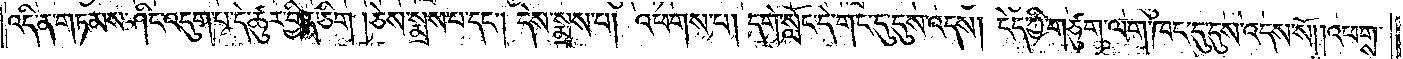འདི་ན་གཏམས་ཤིང་འདུག་པ་དེ་ཚུར་བྱིན་ཅིག །ཅེས་སྨྲས་པ་དང༌། དེས་སྨྲས་པ། འཕགས་པ། དགེ་སློང་དེ་གང་དུ་དུས་འདས། ངེད་ཀྱི་གཙུག་ལག་ཁང་དུ་དུས་འདས་སོ། །འཕགས་
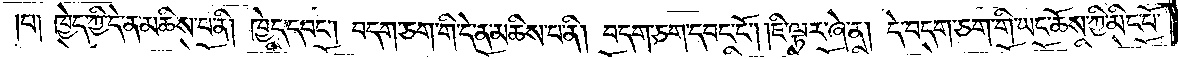པ། ཁྱེད་ཀྱི་དེ་ན་མཆིས་པ་ནི། ཁྱེད་དབང༌། བདག་ཅག་གི་དེ་ན་མཆིས་པ་ནི། བདག་ཅག་དབང་ངོ༌། །ཇི་ལྟར་ཞེ་ན། དེ་བདག་ཅག་གི་ཡང་ཆོས་ཀྱི་མིང་པོ་
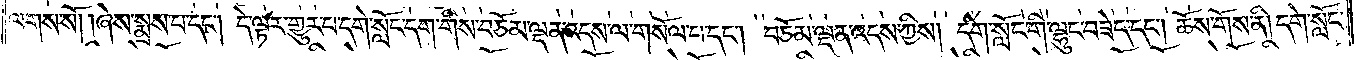ལགས་སོ། །ཞེས་སྨྲས་པ་དང༌། དེ་ལྟར་གྱུར་པ་དགེ་སློང་དག་གིས་བཅོམ་ལྡན་འདས་ལ་གསོལ་པ་དང༌། བཅོམ་ལྡན་འདས་ཀྱིས། དགེ་སློང་གི་ལྷུང་བཟེད་དང༌། ཆོས་གོས་ནི། དགེ་སློང་
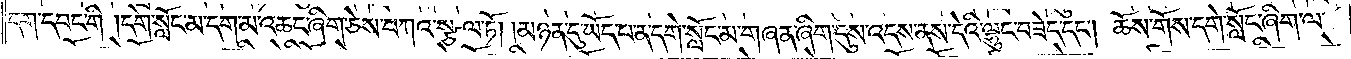དག་དབང་གི །དགེ་སློང་མ་དག་མ་འཆང་ཞིག་ཅེས་བཀའ་སྩལ་ཏོ། །མཉན་དུ་ཡོད་པ་ན་དགེ་སློང་མ་གཞན་ཞིག་དུས་འདས་ནས་དེའི་ལྷུང་བཟེད་དང༌། ཆོས་གོས་དགེ་སློང་ཞིག་ལ་
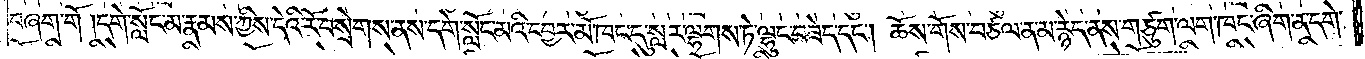བཞག་གོ །དགེ་སློང་མ་རྣམས་ཀྱིས་དེའི་རོ་བསྲེགས་ནས་དགེ་སློང་མའི་དབྱར་མོ་ཁང་དུ་སླར་ལྷགས་ཏེ་ལྷུང་བཟེད་དང༌། ཆོས་གོས་བཙལ་ན་མ་རྙེད་ནས་གཙུག་ལག་ཁང་ཞིག་ན་དགེ་
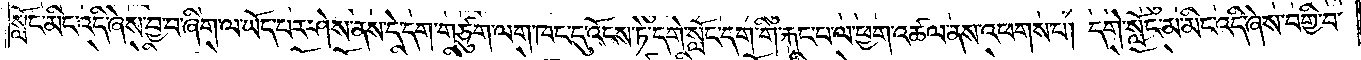སློང་མིང་འདི་ཞེས་བྱ་བ་ཞིག་ལ་ཡོད་པར་ཤེས་ནས་དེ་དག་གཙུག་ལག་ཁང་དུ་འོངས་ཏེ་དགེ་སློང་དག་གི་རྐང་པ་ལ་ཕྱག་འཚལ་ནས་འཕགས་པ། དགེ་སློང་མ་མིང་འདི་ཞེས་བགྱི་བ་
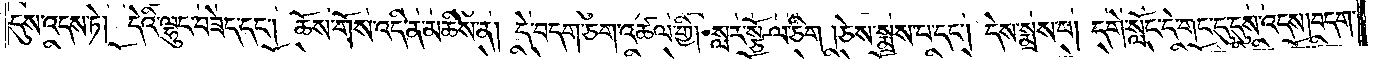དུས་འདས་ཏེ། དེའི་ལྷུང་བཟེད་དང༌། ཆོས་གོས་འདི་ན་མཆིས་ན། དེ་བདག་ཅག་འཚལ་གྱི། སླར་སྩོལ་ཅིག །ཅེས་སྨྲས་པ་དང༌། དེས་སྨྲས་པ། དགེ་སློང་དེ་གང་དུ་དུས་འདས། བདག་
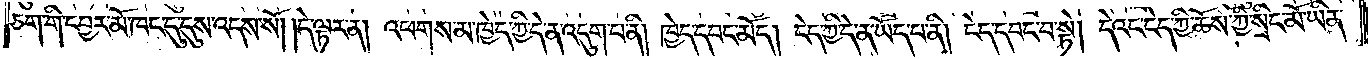ཅག་གི་དབྱར་མོ་ཁང་དུ་དུས་འདས་སོ། །དེ་ལྟར་ན། འཕགས་མ་ཁྱེད་ཀྱི་དེ་ན་འདུག་པ་ནི། ཁྱེད་དབང་མོད། ངེད་ཀྱི་དེ་ན་ཡོད་པ་ནི། ངེད་དབང་བ་སྟེ། དེའང་ངེད་ཀྱི་ཆོས་ཀྱི་སྲིང་མོ་ཡིན་
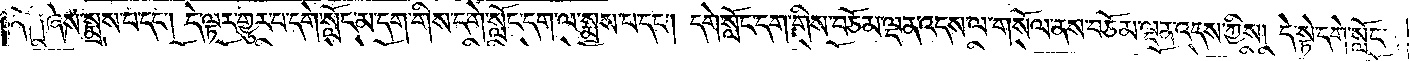ནོ༑ ༑ཞེས་སྨྲས་པ་དང༌། དེ་ལྟར་གྱུར་པ་དགེ་སློང་མ་དག་གིས་དགེ་སློང་དག་ལ་སྨྲས་པ་དང༌། དགེ་སློང་དག་གིས་བཅོམ་ལྡན་འདས་ལ་གསོལ་ནས་བཅོམ་ལྡན་འདས་ཀྱིས། དེ་སྟེ་དགེ་སློང་
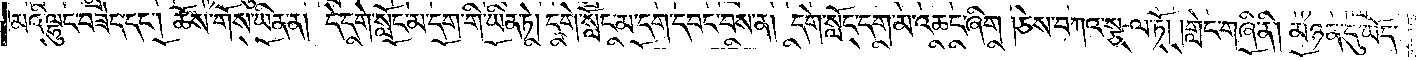མའི་ལྷུང་བཟེད་དང༌། ཆོས་གོས་ཡིན་ན། དེ་དགེ་སློང་མ་དག་གི་ཡིན་ཏེ། དགེ་སློང་མ་དག་དབང་བས་ན། དགེ་སློང་དག་མ་འཆང་ཞིག །ཅེས་བཀའ་སྩལ་ཏོ། །གླེང་གཞི་ནི། མཉན་དུ་ཡོད་
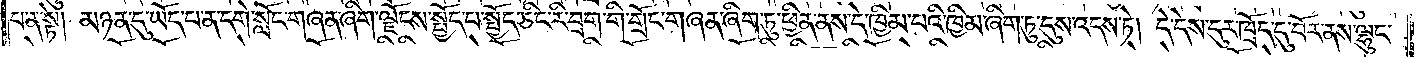པ་ན་སྟེ། མཉན་དུ་ཡོད་པ་ན་དགེ་སློང་གཞན་ཞིག་ལྗོངས་སྤྱོད་པ་སྤྱོད་ཅིང་རི་བྲག་གི་གྲོང་གཞན་ཞིག་ཏུ་ཕྱིན་ནས་དེ་ཁྱིམ་པའི་ཁྱིམ་ཞིག་ཏུ་དུས་འདས་ཏེ། དེ་དེས་དུར་ཁྲོད་དུ་བོར་ནས་ལྷུང་
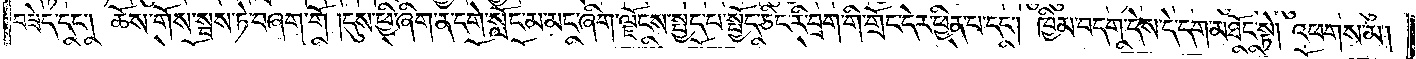བཟེད་དང༌། ཆོས་གོས་སྦས་ཏེ་བཞག་གོ །དུས་ཕྱི་ཞིག་ན་དགེ་སློང་མ་མང་ཞིག་ལྗོངས་སྤྱད་པ་སྤྱོད་ཅིང་རི་བྲག་གི་གྲོང་དེར་ཕྱིན་པ་དང༌། ཁྱིམ་བདག་དེས་དེ་དག་མཐོང་སྟེ། འཕགས་མ།
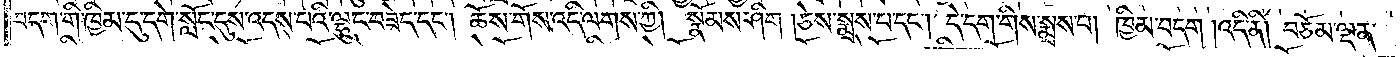བདག་གི་ཁྱིམ་དུ་དགེ་སློང་དུས་འདས་པའི་ལྷུང་བཟེད་དང༌། ཆོས་གོས་འདི་ལགས་ཀྱི། སྣོམས་ཤིག །ཅེས་སྨྲས་པ་དང༌། དེ་དག་གིས་སྨྲས་པ། ཁྱིམ་བདག །འདི་ནི། བཅོམ་ལྡན་
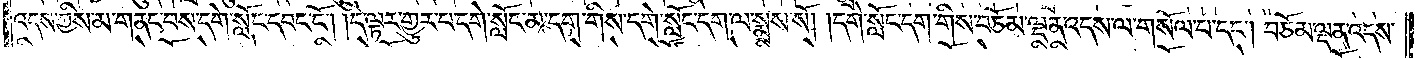འདས་ཀྱིས་མ་གནང་བས་དགེ་སློང་དབང་ངོ༌། །དེ་ལྟར་གྱུར་པ་དགེ་སློང་མ་དག་གིས་དགེ་སློང་དག་ལ་སྨྲས་སོ། །དགེ་སློང་དག་གིས་བཅོམ་ལྡན་འདས་ལ་གསོལ་པ་དང༌། བཅོམ་ལྡན་འདས་
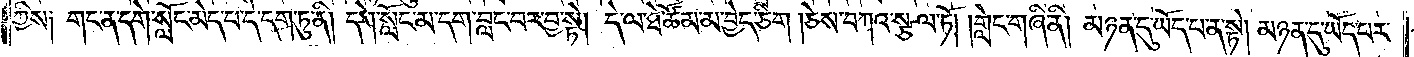ཀྱིས༑ གང་ན་དགེ་སློང་མེད་པ་དེ་དག་ཏུ་ནི། དགེ་སློང་མ་དག་བླང་བར་བྱ་སྟེ། དེ་ལ་ཐེ་ཚོམ་མ་བྱེད་ཅིག །ཅེས་བཀའ་སྩལ་ཏོ། །གླེང་གཞི་ནི། མཉན་དུ་ཡོད་པ་ན་སྟེ། མཉན་དུ་ཡོད་པར་
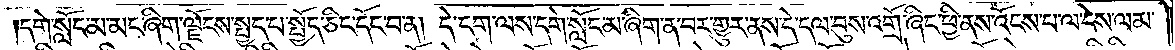དགེ་སློང་མ་མང་ཞིག་ལྗོངས་སྤྱད་པ་སྤྱོད་ཅིང་དོང་བ་ན། དེ་དག་ལས་དགེ་སློང་མ་ཞིག་ན་བར་གྱུར་ནས་དེ་དལ་བུས་འགྲོ་ཞིང་ཕྱི་ནས་འོངས་པ་ལ་དེས་ལམ་
